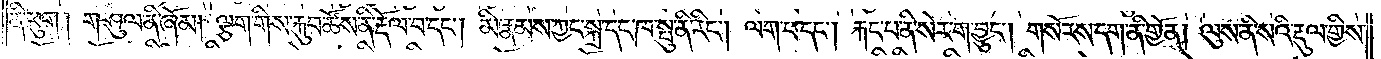ནི་ཕུག། གཤུལ་ནི་ཞོམ། ལྕག་གིས་རྐུབ་ཚོས་ནི་རྡོལ་བ་དང༌། མི་རྣམས་ཀྱང་སྐྲ་དང་ཁ་སྤུ་ནི་རིང༌། ལག་པ་དང༌། རྐང་པ་ནི་སེར་ག་བྱུང༌། གསོ་རས་དག་ནི་གྱོན། ལུས་ནི་སའི་རྡུལ་གྱིས་
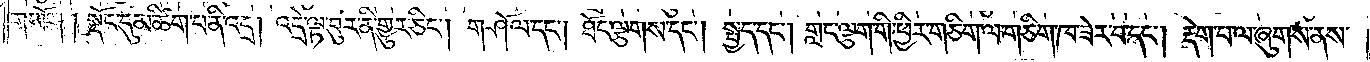གཡོག། སྡོང་དུ་མ་ཚིག་པ་ནི་འདྲ། འདྲེ་ལྟ་བུར་ནི་གྱུར་ཅིང༌། གཤོལ་དང༌། ཐོང་ལྕགས་དང༌། སྤྱད་དང༌། གླང་ལྕག་གི་ཕྱིར་གཅིག་ལ་གཅིག་ཁ་ཟེར་བ་དང༌། རྡེག་པ་ལ་ཞུགས་ནས་
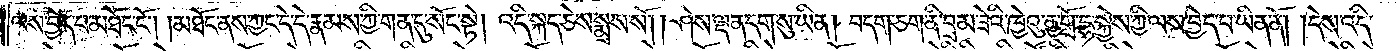ལས་བྱེད་པ་མཐོང་ངོ༌། །མཐོང་ནས་ཀྱང་དེ་དེ་རྣམས་ཀྱི་གན་དུ་སོང་སྟེ། འདི་སྐད་ཅེས་སྨྲས་སོ། །ཤེས་ལྡན་དག་སུ་ཡིན། བདག་ཅག་ནི་བྲམ་ཟེའི་ཁྱེའུ་ནྱ་གྲོ་དྷ་སྐྱེས་ཀྱི་ལས་བྱེད་པ་ཡིན་ནོ། །དེས་འདི་
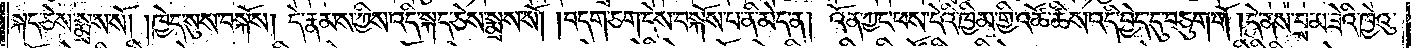སྐད་ཅེས་སྨྲས་སོ། །ཁྱེད་སུས་བསྐོས། དེ་རྣམས་ཀྱིས་འདི་སྐད་ཅེས་སྨྲས་སོ། །བདག་ཅག་དེས་བསྐོས་པ་ནི་མེད་ན། འོན་ཀྱང་ཕས་དེའི་ཁྱིམ་གྱི་འཚོ་ཚིས་འདི་བྱེད་དུ་བཅུག་གོ །དེ་ནས་བྲམ་ཟེའི་ཁྱེའུ་
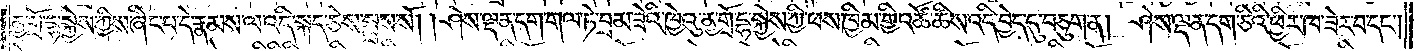ནྱ་གྲོ་དྷ་སྐྱེས་ཀྱིས་ཞིང་པ་དེ་རྣམས་ལ་འདི་སྐད་ཅེས་སྨྲས་སོ། །ཤེས་ལྡན་དག་གལ་ཏེ་བྲམ་ཟེའི་ཁྱེའུ་ནྱ་གྲོ་དྷ་སྐྱེས་ཀྱི་ཕས་ཁྱིམ་གྱི་འཚོ་ཚིས་འདི་བྱེད་དུ་བཅུག་ན། ཤེས་ལྡན་དག་ཅིའི་ཕྱིར་ཁ་ཟེར་བ་དང༌།
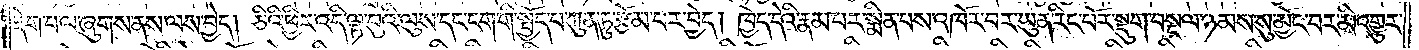རྡེག་པ་ལ་ཞུགས་ནས་ལས་བྱེད། ཅིའི་ཕྱིར་འདི་ལྟ་བུའི་ལུས་དང་ངག་གི་སྤྱོད་པ་ཀུན་ཏུ་རྩོམ་པར་བྱེད། ཁྱེད་དེའི་རྣམ་པར་སྨིན་པས་འཁོར་བར་ཡུན་རིང་པོར་སྡུག་བསྔལ་ཉམས་སུ་མྱོང་བར་མི་འགྱུར་
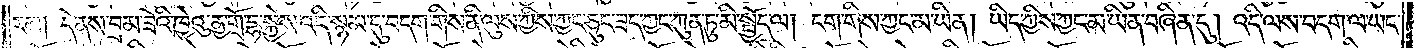རམ། དེ་ནས་བྲམ་ཟེའི་ཁྱེའུ་ནྱ་གྲོ་དྷ་སྐྱེས་འདི་སྙམ་དུ་བདག་གིས་ནི་ལུས་ཀྱིས་ཀྱང་ཅུང་ཟད་ཀྱང་ཀུན་ཏུ་མི་སྤྱོད་ལ། ངག་གིས་ཀྱང་མ་ཡིན། ཡིད་ཀྱིས་ཀྱང་མ་ཡིན་བཞིན་དུ། འདི་ལས་བདག་ལ་ཡང་
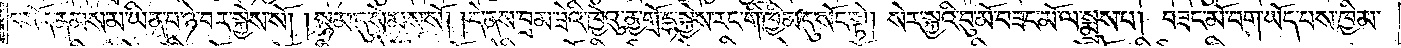བསོད་ནམས་མ་ཡིན་པ་ཉེ་བར་སྐྱེས་སོ། །སྙམ་དུ་སེམས་སོ། །དེ་ནས་བྲམ་ཟེའི་ཁྱེའུ་ནྱ་གྲོ་དྷ་སྐྱེས་རང་གི་ཁྱིམ་དུ་སོང་སྟེ། སེར་སྐྱའི་བུ་མོ་བཟང་མོ་ལ་སྨྲས་པ། བཟང་མོ་བག་ཡོད་པས་ཁྱིམ་
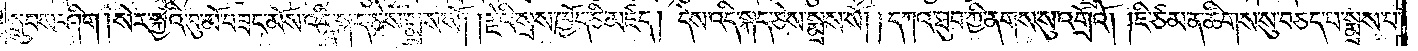སྒྲུབས་ཤིག །སེར་སྐྱའི་བུ་མོ་བཟང་མོས་འདི་སྐད་ཅེས་སྨྲས་སོ། །རྗེའི་སྲས་ཁྱོད་ཅི་མཛད། དེས་འདི་སྐད་ཅེས་སྨྲས་སོ། །དཀའ་ཐུབ་ཀྱི་ནགས་སུ་འགྲོའོ། །ཇི་ཙམ་ན་ཚིགས་སུ་བཅད་པ་སྨྲས་པ་
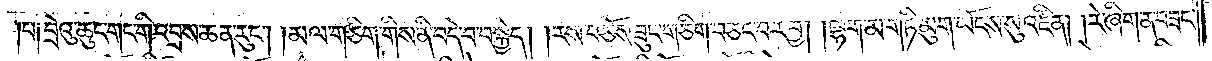པ༑ བྲེའུ་ཆུང་གང་གི་འབྲས་ཆན་རུང༌། །མལ་གཅིག་གིས་ནི་བདེ་བ་བསྐྱེད། །རས་བཅོས་ཟུང་གཅིག་བཅང་བར་བྱ། །ལྷག་མ་གཏི་མུག་ཡོངས་སུ་འཛིན། །རེ་ཞིག་ན་བཟང་
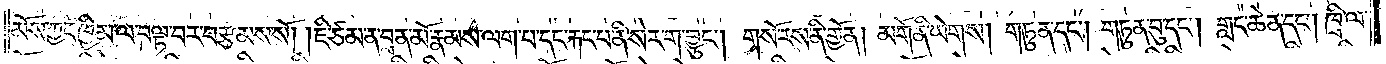མོས་ཀྱང་ཁྱིམ་ལ་བལྟ་བར་བརྩམས་སོ། །ཇི་ཙམ་ན་བྲན་མོ་རྣམས་ལག་པ་དང་རྐང་པ་ནི་སེར་ག་བྱུང༌། གསོ་རས་ནི་གྱོན། མགོ་ནི་ཡེགས། གཏུན་དང༌། གཏུན་བུ་དང༌། གླང་ཆེན་དང༌། ཁྲི་ལ་
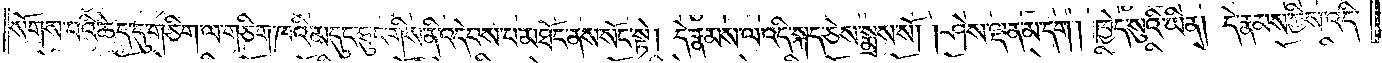སོགས་པའི་ཆེད་དུ་གཅིག་ལ་གཅིག་ཁའི་མདུང་ཐུང་གིས་ནི་འདེབས་པ་མཐོང་ནས་སོང་སྟེ། དེ་རྣམས་ལ་འདི་སྐད་ཅེས་སྨྲས་སོ། །ཤེས་ལྡན་མ་དག། ཁྱེད་སུའི་ཡིན། དེ་རྣམས་ཀྱིས་འདི་
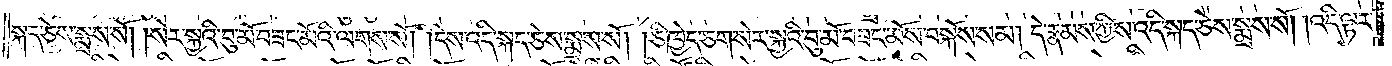སྐད་ཅེས་སྨྲས་སོ། །སེར་སྐྱའི་བུ་མོ་བཟང་མོའི་ལགས་སོ། །དེས་འདི་སྐད་ཅེས་སྨྲས་སོ། །ཅི་ཁྱེད་ཅག་སེར་སྐྱའི་བུ་མོ་བཟང་མོས་བསྐོས་སམ། དེ་རྣམས་ཀྱིས་འདི་སྐད་ཅེས་སྨྲས་སོ། །འདི་ལྟར་
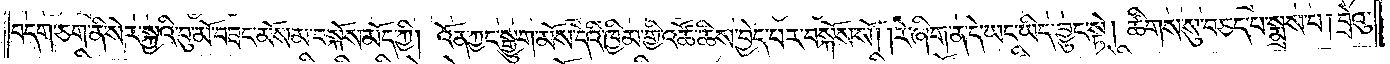བདག་ཅག་ནི་སེར་སྐྱའི་བུ་མོ་བཟང་མོས་མ་བསྐོས་མོད་ཀྱི། འོན་ཀྱང་སྒྱུག་མོས་དེའི་ཁྱིམ་གྱི་འཚོ་ཚིས་བྱེད་པར་བསྐོས་སོ། །རེ་ཞིག་ན་དེ་ཡང་ཡིད་བྱུང་སྟེ། ཚིགས་སུ་བཅད་པ་སྨྲས་པ། བྲེའུ་
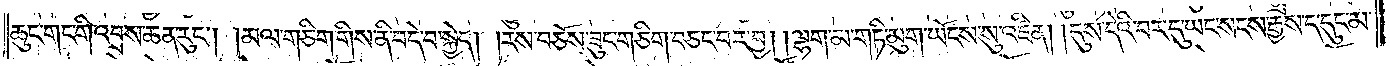ཆུང་གང་གི་འབྲས་ཆན་རུང༌། །མལ་གཅིག་གིས་ནི་བདེ་བ་སྐྱེད། །རས་བཅོས་ཟུང་གཅིག་བཅང་བར་བྱ། །ལྷག་མ་གཏི་མུག་ཡོངས་སུ་འཛིན། །དུས་དེའི་བར་དུ་ཡང་སངས་རྒྱས་ད་དུང་མ་
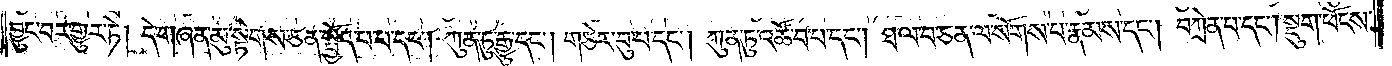བྱུང་བར་གྱུར་ཏེ། དེ་གཞན་མུ་སྟེགས་ཅན་སྤྱོད་པ་པ་དང༌། ཀུན་ཏུ་རྒྱུ་དང༌། གཅེར་བུ་པ་དང༌། ཀུན་ཏུ་འཚོ་བ་པ་དང༌། ཐལ་བ་ཅན་ལ་སོགས་པ་རྣམས་དང༌། བཀྲེན་པ་དང༌། སྡུག་ཕོངས་
